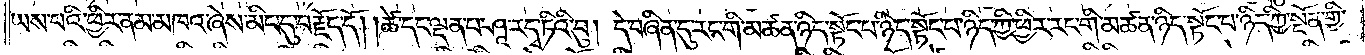ཡས་པའི་ཕྱིར་ནམ་མཁའ་ཞེས་མིང་དུ་བརྗོད་དོ། །ཚེ་དང་ལྡན་པ་ཤཱ་ར་དྭ་ཏིའི་བུ། དེ་བཞིན་དུ་རང་གི་མཚན་ཉིད་སྟོང་པ་ཉིད་ཀྱི་ཕྱིར་རང་གི་མཚན་ཉིད་སྟོང་པ་ཉིད་ཀྱི་སྔོན་གྱི་
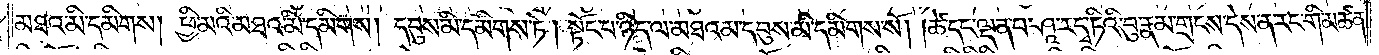མཐའ་མི་དམིགས། ཕྱི་མའི་མཐའ་མི་དམིགས། དབུས་མི་དམིགས་ཏེ། སྟོང་པ་ཉིད་ལ་མཐའམ་དབུས་མི་དམིགས་སོ། །ཚེ་དང་ལྡན་པ་ཤཱ་ར་དྭ་ཏིའི་བུ་རྣམ་གྲངས་དེས་ན་རང་གི་མཚན་
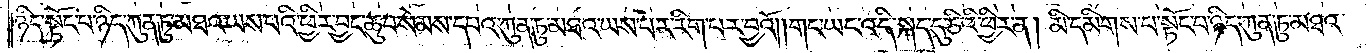ཉིད་སྟོང་པ་ཉིད་ཀུན་ཏུ་མཐའ་ཡས་པའི་ཕྱིར་བྱང་ཆུབ་སེམས་དཔའ་ཀུན་ཏུ་མཐའ་ཡས་པར་རིག་པར་བྱའོ། །གང་ཡང་འདི་སྐད་དུ་ཅིའི་ཕྱིར་ན། མི་དམིགས་པ་སྟོང་པ་ཉིད་ཀུན་ཏུ་མཐའ་
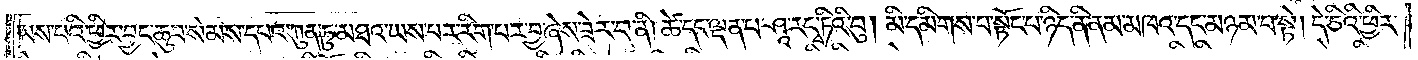ཡས་པའི་ཕྱིར་བྱང་ཆུབ་སེམས་དཔའ་ཀུན་ཏུ་མཐའ་ཡས་པར་རིག་པར་བྱ་ཞེས་ཟེར་བ་ནི། ཚེ་དང་ལྡན་པ་ཤཱ་ར་དྭ་ཏིའི་བུ། མི་དམིགས་པ་སྟོང་པ་ཉིད་ནི་ནམ་མཁའ་དང་མཉམ་པ་སྟེ། དེ་ཅིའི་ཕྱིར་
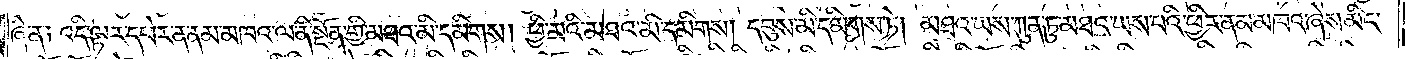ཞེ་ན། འདི་ལྟར་དཔེར་ན་ནམ་མཁའ་ལ་ནི་སྔོན་གྱི་མཐའ་མི་དམིགས། ཕྱི་མའི་མཐའ་མི་དམིགས། དབུས་མི་དམིགས་ཏེ། མཐའ་ཡས་ཀུན་ཏུ་མཐའ་ཡས་པའི་ཕྱིར་ནམ་མཁའ་ཞེས་མིང་
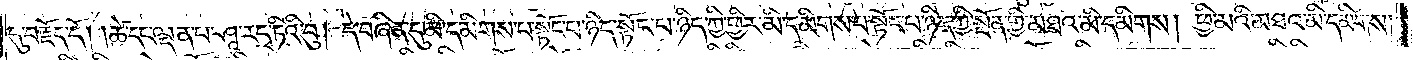དུ་བརྗོད་དོ། །ཚེ་དང་ལྡན་པ་ཤཱ་ར་དྭ་ཏིའི་བུ། དེ་བཞིན་དུ་མི་དམིགས་པ་སྟོང་པ་ཉིད་ཀྱི་ཕྱིར་མི་དམིགས་པ་སྟོང་པ་ཉིད་ཀྱི་སྔོན་གྱི་མཐའ་མི་དམིགས། ཕྱི་མའི་མཐའ་མི་དམིགས།
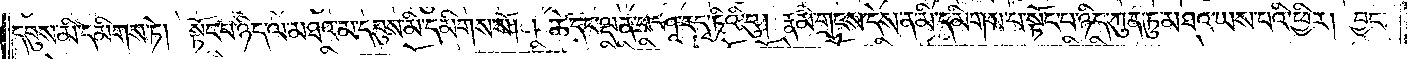དབུས་མི་དམིགས་ཏེ། སྟོང་པ་ཉིད་ལ་མཐའམ་དབུས་མི་དམིགས་སོ། །ཚེ་དང་ལྡན་པ་ཤཱ་ར་དྭ་ཏིའི་བུ། རྣམ་གྲངས་དེས་ན་མི་དམིགས་པ་སྟོང་པ་ཉིད་ཀུན་ཏུ་མཐའ་ཡས་པའི་ཕྱིར། བྱང་
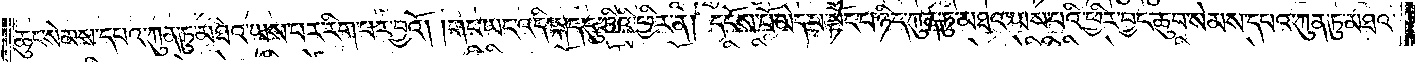ཆུབ་སེམས་དཔའ་ཀུན་ཏུ་མཐའ་ཡས་པར་རིག་པར་བྱའོ། །གང་ཡང་འདི་སྐད་དུ་ཅིའི་ཕྱིར་ན། དངོས་པོ་མེད་པ་སྟོང་པ་ཉིད་ཀུན་ཏུ་མཐའ་ཡས་པའི་ཕྱིར་བྱང་ཆུབ་སེམས་དཔའ་ཀུན་ཏུ་མཐའ་
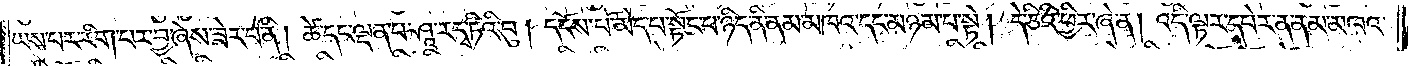ཡས་པར་རིག་པར་བྱ་ཞེས་ཟེར་བ་ནི། ཚེ་དང་ལྡན་པ་ཤཱ་ར་དྭ་ཏིའི་བུ། དངོས་པོ་མེད་པ་སྟོང་པ་ཉིད་ནི་ནམ་མཁའ་དང་མཉམ་པ་སྟེ། དེ་ཅིའི་ཕྱིར་ཞེ་ན། འདི་ལྟར་དཔེར་ན་ནམ་མཁའ་
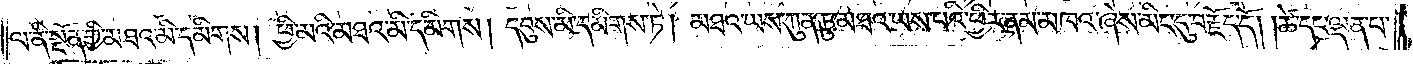ལ་ནི་སྔོན་གྱི་མཐའ་མི་དམིགས། ཕྱི་མའི་མཐའ་མི་དམིགས། དབུས་མི་དམིགས་ཏེ། མཐའ་ཡས་ཀུན་ཏུ་མཐའ་ཡས་པའི་ཕྱིར་ནམ་མཁའ་ཞེས་མིང་དུ་བརྗོད་དོ། །ཚེ་དང་ལྡན་པ་
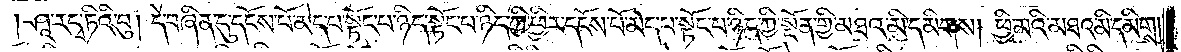ཤཱ་ར་དྭ་ཏིའི་བུ། དེ་བཞིན་དུ་དངོས་པོ་མེད་པ་སྟོང་པ་ཉིད་སྟོང་པ་ཉིད་ཀྱི་ཕྱིར་དངོས་པོ་མེད་པ་སྟོང་པ་ཉིད་ཀྱི་སྔོན་གྱི་མཐའ་མི་དམིགས། ཕྱི་མའི་མཐའ་མི་དམིགས།
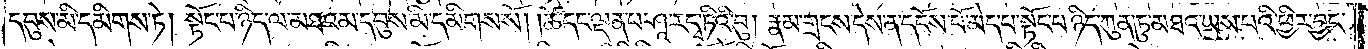དབུས་མི་དམིགས་ཏེ། སྟོང་པ་ཉིད་ལ་མཐའམ་དབུས་མི་དམིགས་སོ། །ཚེ་དང་ལྡན་པ་ཤཱ་ར་དྭ་ཏིའི་བུ། རྣམ་གྲངས་དེས་ན་དངོས་པོ་མེད་པ་སྟོང་པ་ཉིད་ཀུན་ཏུ་མཐའ་ཡས་པའི་ཕྱིར་བྱང་
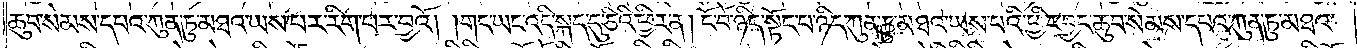ཆུབ་སེམས་དཔའ་ཀུན་ཏུ་མཐའ་ཡས་པར་རིག་པར་བྱའོ། །གང་ཡང་འདི་སྐད་དུ་ཅིའི་ཕྱིར་ན། ངོ་བོ་ཉིད་སྟོང་པ་ཉིད་ཀུན་ཏུ་མཐའ་ཡས་པའི་ཕྱིར་བྱང་ཆུབ་སེམས་དཔའ་ཀུན་ཏུ་མཐའ་
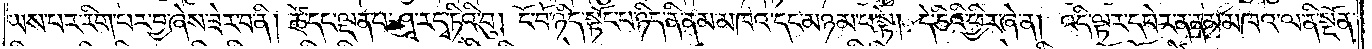ཡས་པར་རིག་པར་བྱ་ཞེས་ཟེར་བ་ནི། ཚེ་དང་ལྡན་པ་ཤཱ་ར་དྭ་ཏིའི་བུ། ངོ་བོ་ཉིད་སྟོང་པ་ཉིད་ནི་ནམ་མཁའ་དང་མཉམ་པ་སྟེ། དེ་ཅིའི་ཕྱིར་ཞེ་ན། འདི་ལྟར་དཔེར་ན། ནམ་མཁའ་ལ་ནི་སྔོན་
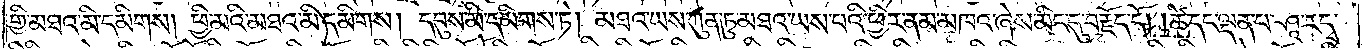གྱི་མཐའ་མི་དམིགས། ཕྱི་མའི་མཐའ་མི་དམིགས། དབུས་མི་དམིགས་ཏེ། མཐའ་ཡས་ཀུན་ཏུ་མཐའ་ཡས་པའི་ཕྱིར་ནམ་མཁའ་ཞེས་མིང་དུ་བརྗོད་དོ། །ཚེ་དང་ལྡན་པ་ཤཱ་ར་དྭ་
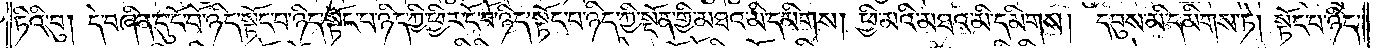ཏིའི་བུ། དེ་བཞིན་དུ་ངོ་བོ་ཉིད་སྟོང་པ་ཉིད་ཀྱི་ཕྱིར་ངོ་བོ་ཉིད་སྟོང་པ་ཉིད་ཀྱི་སྔོན་གྱི་མཐའ་མི་དམིགས། ཕྱི་མའི་མཐའ་མི་དམིགས། དབུས་མི་དམིགས་ཏེ། སྟོང་པ་ཉིད་
